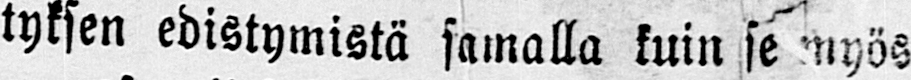tyksen edistymistä samalla kuin se myös
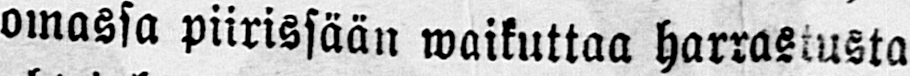omassa piirissään waikuttaa harrastusta
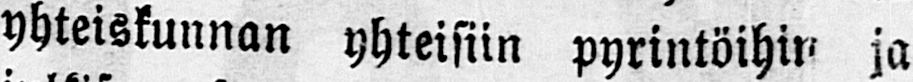yhteiskunnan yhteisiin pyrintöihin ja
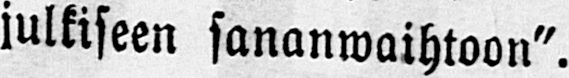julkiseen sananwaihtoon".
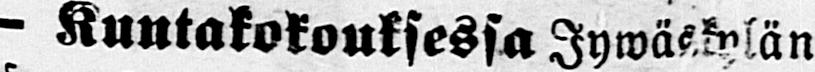- Kuntakokouksessa Jywäskylän
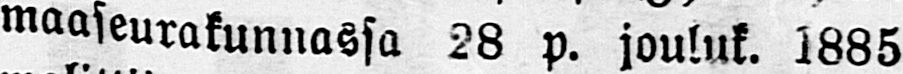maaseurakunnassa 28 p. jouluk. 1885
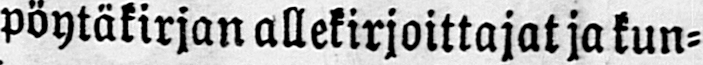pöytäkirjan allekirjoittajat ja kun-
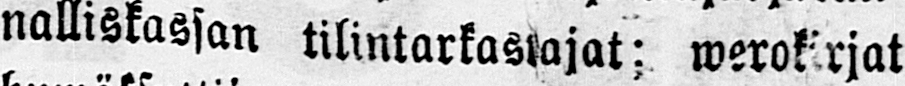nalliskassan tilintarkastajat: werokirjat
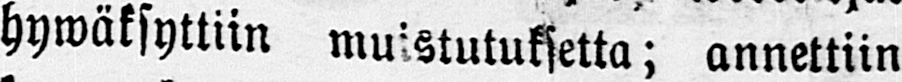hywäksyttiin muistutuksetta; annettiin
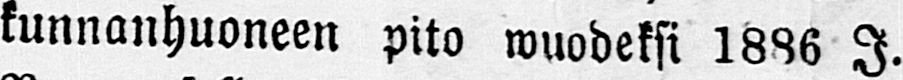kunnanhuoneen pito wuodeksi 1886 I.
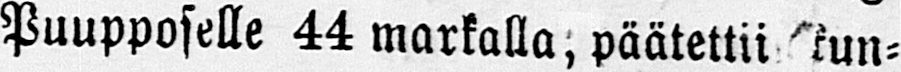Puupposelle 44 markalla, päätettii kun-
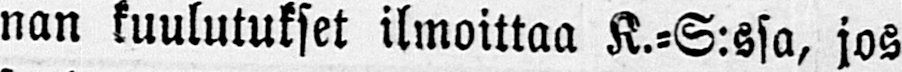nan kuulutukset ilmoittaa K.-S:ssa, jos
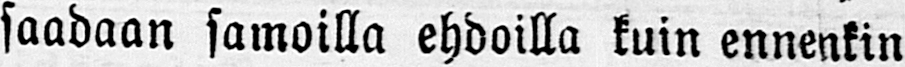saadaan samoilla ehdoilla kuin ennenkin
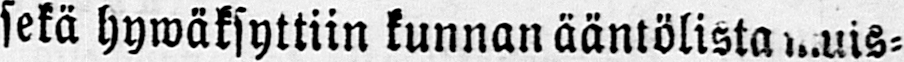sekä hywäksyttiin kunnan ääntölistamuis-
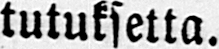tutuksetta.
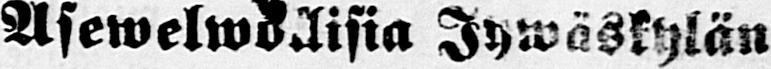-Asewelwollisia Jywäskylän
